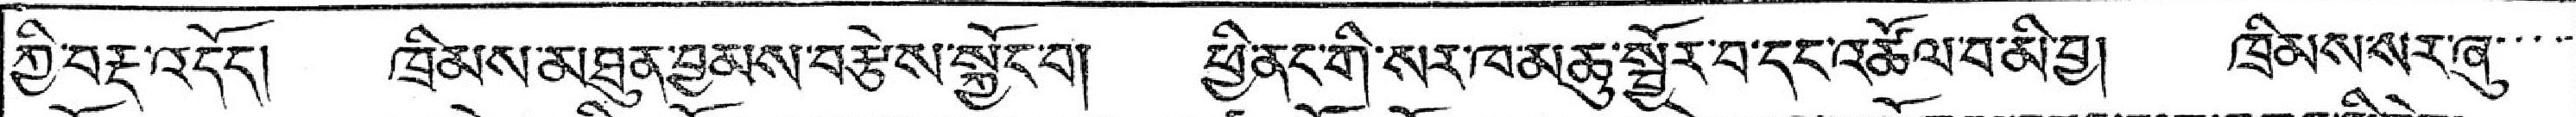སྱི་བརྡ་འདོད། ཁྲིམས་མཐུན་བྱམས་བརྩེས་སྐྱོང་བ། ཕྱི་ནང་གི་སར་ཁ་མཆུ་སྦྱོར་བ་དང་འཚོལ་བ་མི་བྱ། ཁྲིམས་སར་ཞུ་་་་་
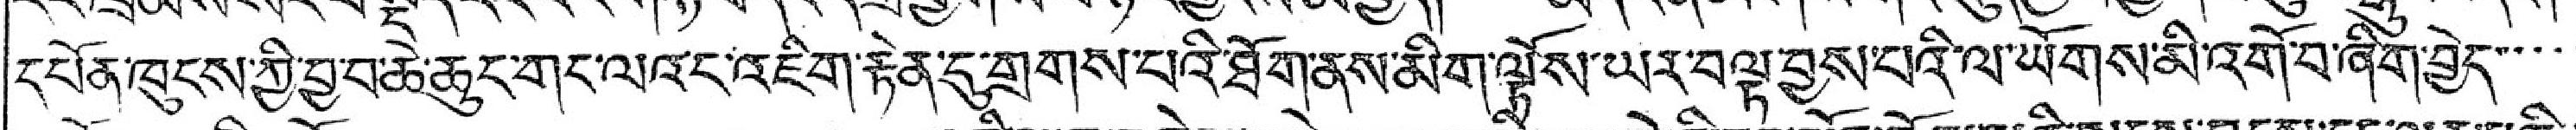དཔོན་ཁུངས་ཀྱི་བྱ་བ་ཆེ་ཆུང་གང་ལའང་འཇིག་རྟེན་དུ་གྲགས་པའི་ཐོག་ནས་མིག་ལྟོས་ཡར་བལྟ་བྱས་པའི་ལ་ཡོགས་མི་འགོ་བ་ཞིག་བྱེད་་་་
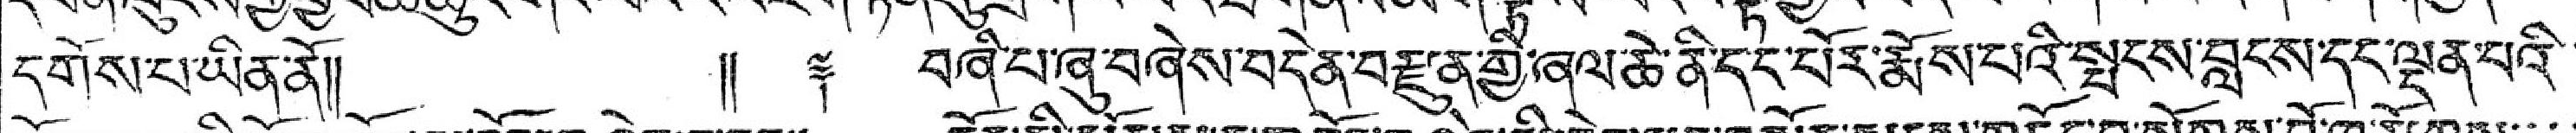དགོས་པ་ཡིན་ནོ།།  །། ༈ བཞི་པ་ཞུ་བཞེས་བདེན་བརྫུན་གྱི་ཞལ་ཆེ་ནི་དང་པོར་རྨོས་པའི་སྤངས་བླངས་དང་ལྡན་པའི་་
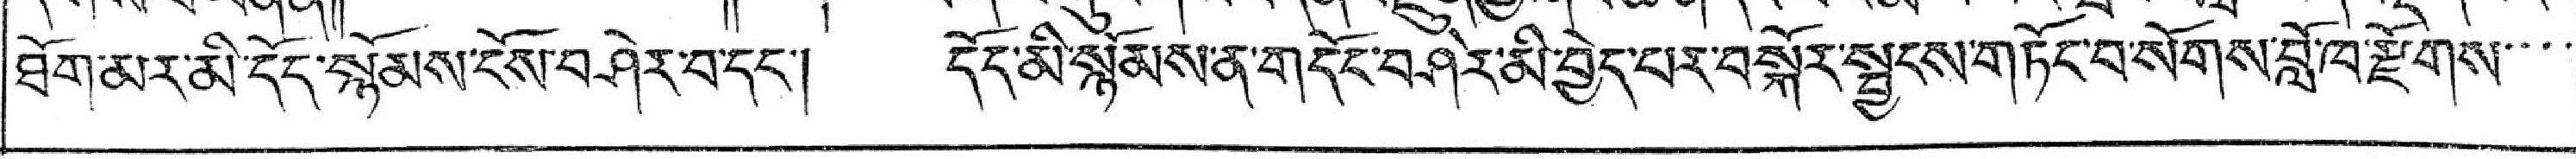ཐོག་མར་མི་དོད་སྙོམས་ངོས་བཤེར་བ་དང་། དོད་མི་སྙོམས་ན་གདོང་བཤེར་མི་བྱེད་པར་བསྐོར་སྦྱངས་གཏོང་བ་སོགས་བློ་བ་རྫོགས་་་་
